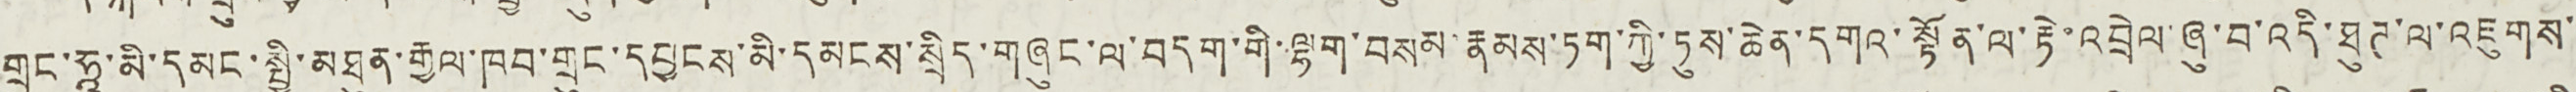གྲུང་ཧཱ་མི་དམངས་སྤྱི་མཐུན་རྒྱལ་ཁབ་གྲུང་དབྱངས་མི་དམངས་སྲིད་གཞུང་ལ་བདག་གི་ལྷག་བསམ་རྣམས་ཏག་ཀྱི་ཏུས་ཆེན་དགའ་སྟོན་ལ་རྟེ་འབྲེལ་ཞུ་བ་འདི་ཐུཊ་ལ་འཇུགས་་
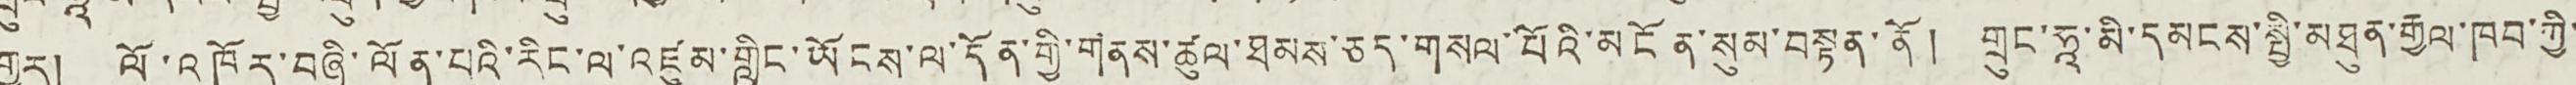གྱུར། ལོ་འཁོར་བཞི་ལོན་པའི་རིང་ལ་འཛུམ་གླིང་ཡོངས་ལ་དོན་གྱི་གནས་ཚུལ་ཐམས་ཅད་གསལ་པོའི་མངོན་སུམ་བསྟན་ནོ། གྲུང་ཧཱ་མི་དམངས་སྤྱི་མཐུན་རྒྱལ་ཁབ་ཀྱི་
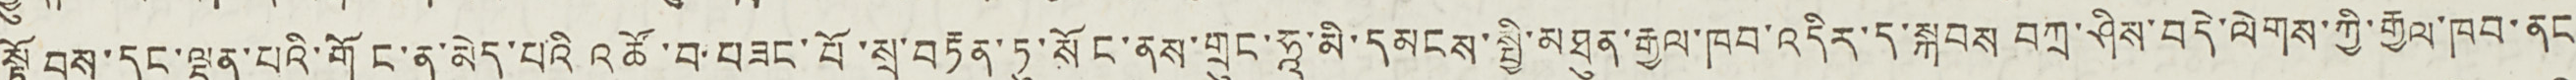སྟོབས་དང་ལྡན་པའི་གོང་ན་མེད་པའི འཚོ་བ་བཟང་པོ་བརྟན་ཏུ་སོང་ནས་གྲུང་ཧཱ་མི་དམངས་སྤྱི་མཐུན་རྒྱལ་ཁབ་འདིར་ད་སྐབས བཀྲ་ཤིས་བདེ་ལེགས་ཀྱི་རྒྱལ་ཁབ་ནང་
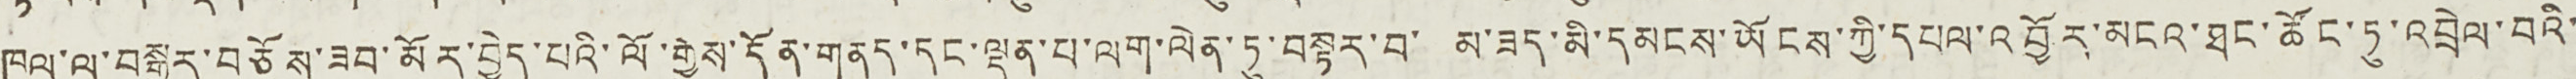ཁུལ་ལ་བསྒྱུར་བཅོས་ཟབ་མོར་བྱེད་པའི་ལོ་རྒྱུས་དོན་གནད་དང་ལྡན་པ་ལག་ལེན་ཏུ་བསྟར་བ་ མ་ཟད་མི་དམངས་ཡོངས་ཀྱི་དཔལ་འབྱོར་མངའ་ཐང་ཚོང་ཏུ་འབྲེལ་བའི་
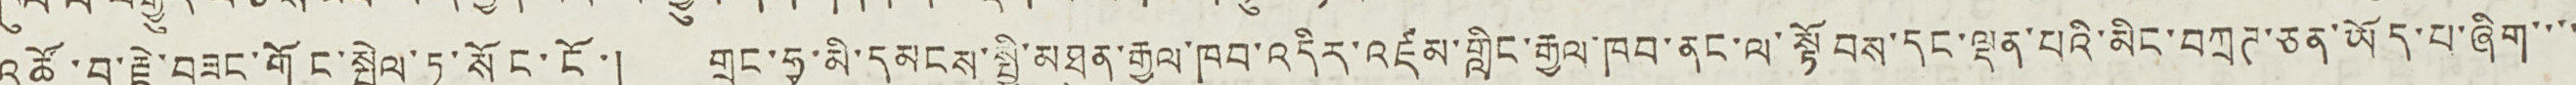འཚོ་བ་རྗེ་བཟང་གོང་སྤེལ་ཏུ་སོང་ངོ་། གྲུང་ཧྭ་མི་དམངས་སྤྱི་མཐུན་རྒྱལ་ཁབ་འདིར་འཛམ་གླིང་རྒྱལ་ཁབ་ནང་ལ་སྟོབས་དང་ལྡན་པའི་མིང་བཀྲཊ་ཅན་ཡོད་པ་ཞིག་་་་
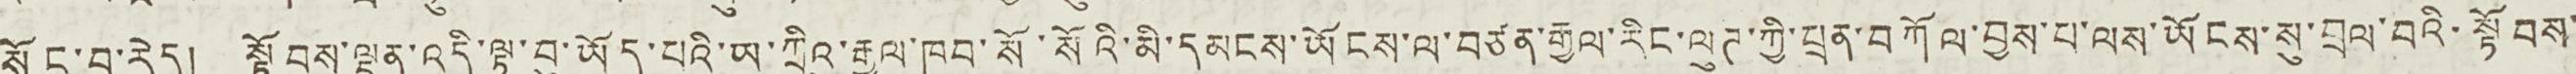སོང་བ་རེད། སྟོབས་ལྡན་འདི་ལྟ་བུ་ཡོད་པའི་ཡ་ཀྲིའུ་རྒྱལ་ཁབ་སོ་སོའི་མི་དམངས་ཡོངས་ལ་བཙན་རྒྱལ་རིང་ལུཊ་ཀྱི་པྲན་བཀོལ་བྱས་པ་ལས་ཡོངས་སུ་བྲལ་བའི་སྟོབས་
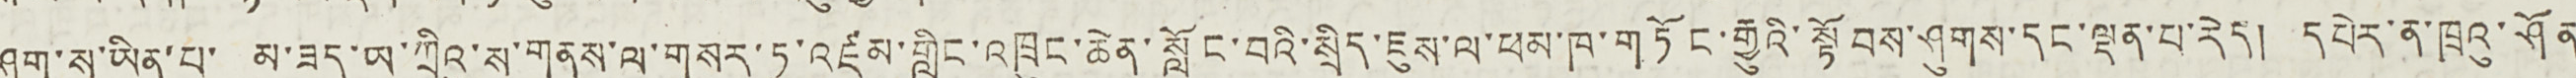ཤུག་ས་ཡིན་པ་ མ་ཟད་ཡ་ཀྲིའུ་ས་གནས་ལ་གསར་ཏུ་འཛམ་གླིང་འཁྲུང་ཆེན་སློང་བའི་སྲིད་ཇུས་ལ་ཕམ་ཁ་གཏོང་རྒྱུའི་སྟོབས་ཤུགས་དང་ལྡན་པ་རེད། དཔེར་ན་ཁྲའུ་ཤོན་
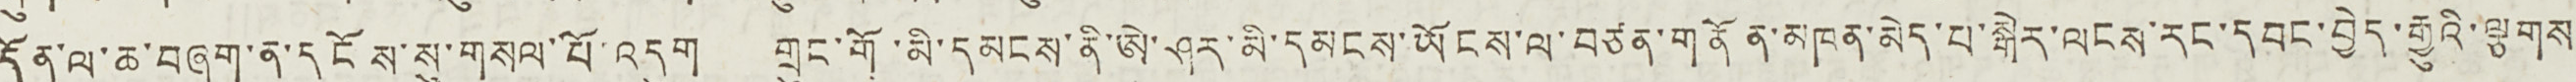དོན་ལ་ཆ་བཞག་ན་དངོས་སུ་གསལ་པོ་འདུག གྲུང་གོ་མི་དམངས་ནི་ཨེ་ཤར་མི་དམངས་ཡོངས་ལ་བཙན་གནོན་མཁན་མེད་པ་སྒེར་ལངས་རང་དབང་བྱེད་རྒྱུའི་ལྕགས་
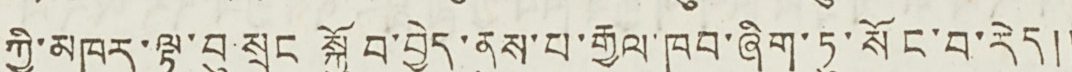ཀྱི་མཁར་ལྟ་བུ སྲུང སྐྱོབ་བྱེད་ནུས་པ་རྒྱལ་ཁབ་ཞིག་ཏུ་སོང་བ་རེད༎
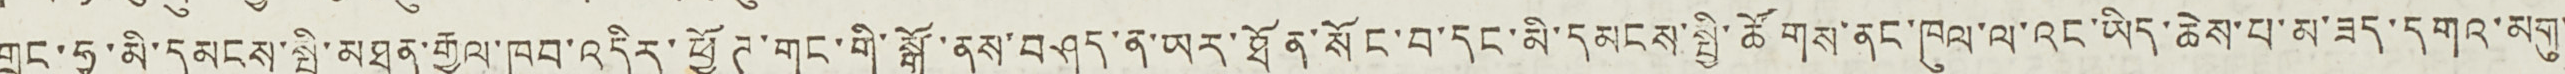གྲུང་ཧྭ་མི་དམངས་སྤྱི་མཐུན་རྒྱལ་ཁབ་འདིར་ཕྱོཊ་གང་གི་སྒོ་ནས་བཤད་ན་ཡར་ཐོན་སོང་བ་དང་མི་དམངས་སྤྱི་ཚོགས་ནང་ཁུལ་ལ་འང་ཡིད་ཆེས་པ་མ་ཟད་དགའ་མགུ་
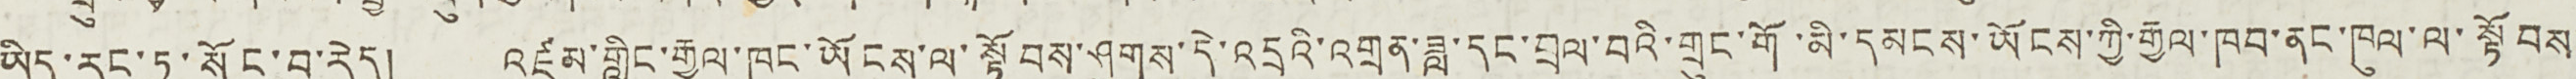ཡིད་རང་ཏུ་སོང་བ་རེད། འཛམ་གླིང་རྒྱལ་ཁང་ཡོངས་ལ་སྟོབས་ཤུགས་དེ་འདྲའི་འགན་ཟླ་དང་བྲལ་བའི་གྲུང་གོ་མི་དམངས་ཡོངས་ཀྱི་རྒྱལ་ཁབ་ནང་ཁུལ་ལ་སྟོབས་
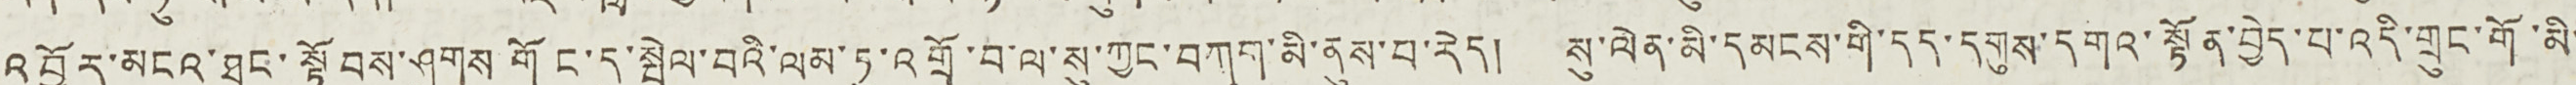འབྱོར་མངའ་ཐང་སྟོབས་ཤུགས གོང་དུ་སྤེལ་བའི་ལམ་ཏུ་འགྲོ་བ་ལ་སུ་ཀྱང་བཀག་མི་ནུས་བ་རེད། སུ་ལེན་མི་དམངས་གི་དད་དགུས་དགའ་སྟོན་བྱེད་པ་འདི་གྲུང་གོ་མི་
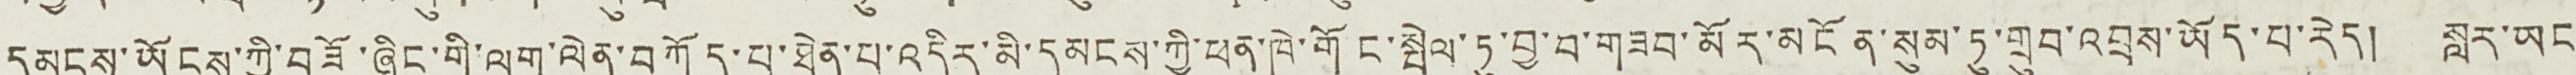དམངས་ཡོངས་ཀྱི་བཟོ་ཞིང་གི་ལག་ལེན་བཀོད་པ་ཐེན་པ་འདིར་མི་དམངས་ཀྱི་ཕན་ཁེ་གོང་སྤེལ་ཏུ་བྱ་བ་གཟབ་མོར་མངོན་སུམ་ཏུ་གྲུབ་འབྲས་ཡོད་པ་རེད། སླར་ཡང་
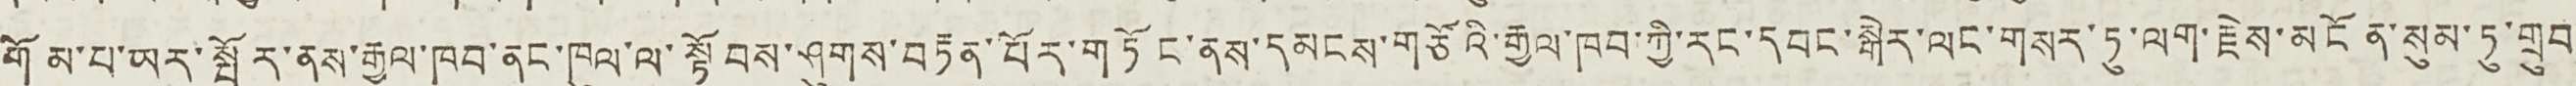གོམ་པ་ཡར་སྤོར་ནས་རྒྱལ་ཁབ་ནང་ཁུལ་ལ་སྟོབས་ཤུགས་བརྟན་པོར་གཏོང་ནས་དམངས་གཙོའི་རྒྱལ་ཁབ་ཀྱི་རང་དབང་སྒེར་ལང་གསར་ཏུ་ལག་རྗེས་མངོན་སུམ་ཏུ་གྲུབ་
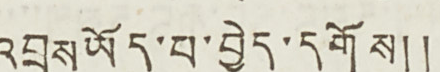འབྲས ཡོད་པ་བྱེད་དགོས༎
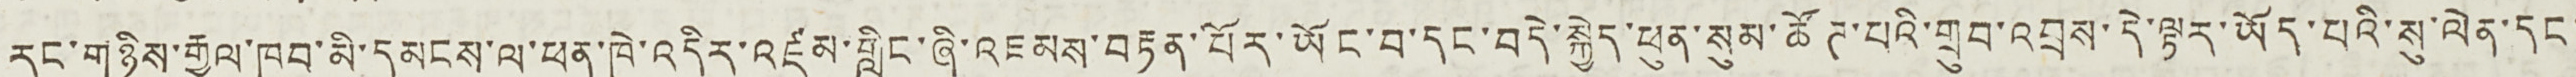རང་གཉིས་རྒྱལ་ཁབ་མི་དམངས་ལ་ཕན་ཁེ་འདིར་འཛམ་གླིང་ཞི་འཇམས་བརྟན་པོར་ཡོང་བ་དང་བདེ་སྐྱེད་ཕུན་སུམ་ཚོཊ་པའི་གྲུབ་འབྲས་དེ་ལྟར་ཡོད་པའི་སུ་ལེན་དང་
